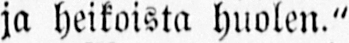ja heikoista huolen."
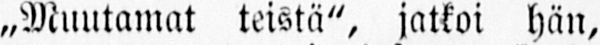„Muutamat teistä", jatkoi hän,
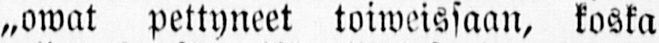„owat pettyneet touveissaan, koska
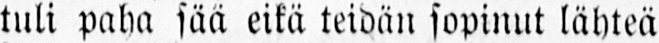tuli paha sää eikä teidän sopinut lähteä
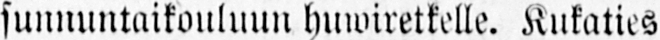sunnuntaikouluun huwiretkelle. Kukaties
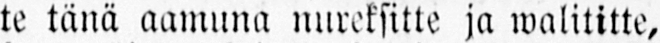te tänä aamuna nureksitte ja walititte,
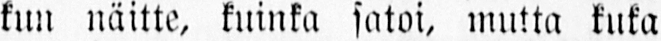kun näitte, kuinka satoi, mutta kuka
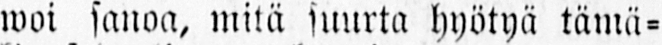moi sanoa, mitä suurta hyötyä tämä-
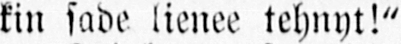kin sade lienee tehnyt!"
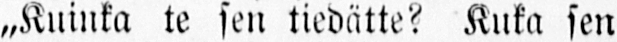„Kuinka te sen tiedätte? Kuka sen
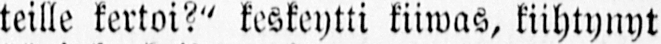teille kertoi?" keskeytti kiiwas, kiihtynyt
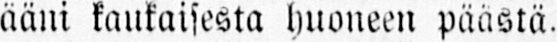ääni kankaisesta huoneen päästä.
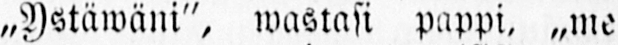„Ystäwäni", wastasi pappi, „me
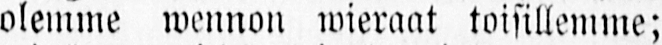olemme wennon wieraat toisillemme;
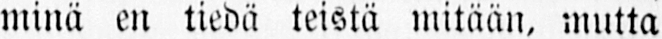minä en tiedä teistä mitään, mutta
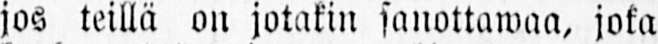jos teillä on jotakin sanottawaa, joka
